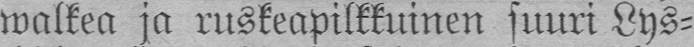walkea ja ruskeapilkkuinen suuri Lys-
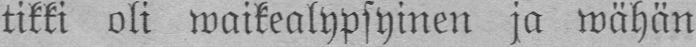tikki oli waikealypsyinen ja wähän
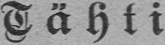Tähti
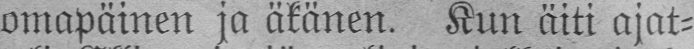omapäinen ja äkänen. Kun äiti ajat-
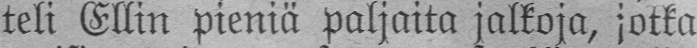teli Ellin pieniä paljaita jalkoja, jotka
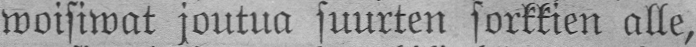woisiwat joutua suurten sorkkien alle,
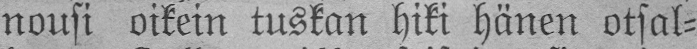nousi oikein tuskan hiki hänen otsal-
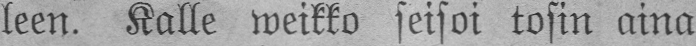leen. Kalle weikko seisoi tosin aina
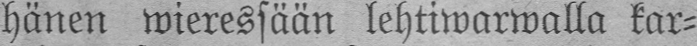hänen wieressään lehtiwarwalla kar-
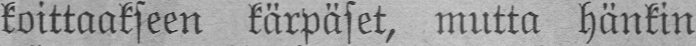koittaakseen kärpäset, mutta hänkin
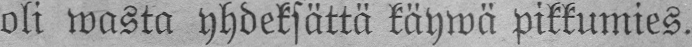oli wasta yhdeksättä käywä pikkumies.
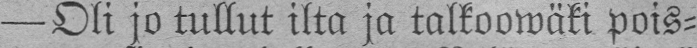—Oli jo tullut ilta ja talkoowäki pois-
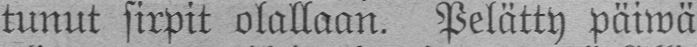tunut sirpit olallaan. Pelätty päiwä
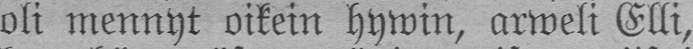oli mennyt oikein hywin, arweli Elli,
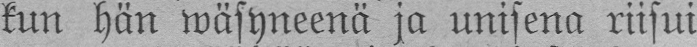kun hän wäsyneenä ja unisena riisui
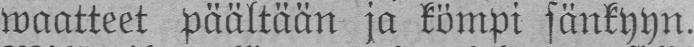waatteet päältään ja kömpi sänkyyn.
